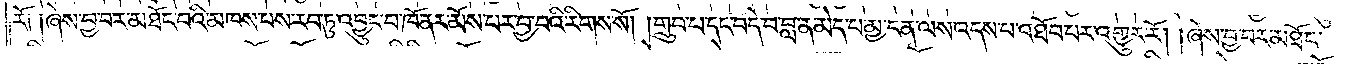རོ། །ཞེས་བྱ་བར་མཐོང་བའི་མཁས་པས་རབ་ཏུ་འབྱུང་བ་ཁོ་ནར་མོས་པར་བྱ་བའི་རིགས་སོ། །གྲུབ་པ་དང་བདེ་བ་བླ་ན་མེད་པ་མྱ་ངན་ལས་འདས་པ་འཐོབ་པར་འགྱུར་རོ། །ཞེས་བྱ་བར་མཐོང་
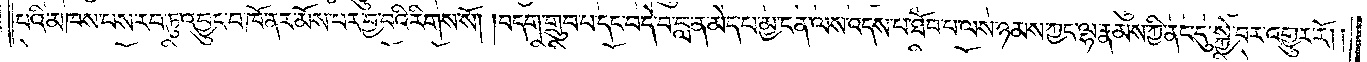པའི་མཁས་པས་རབ་ཏུ་འབྱུང་བ་ཁོ་ནར་མོས་པར་བྱ་བའི་རིགས་སོ། །བདག་གྲུབ་པ་དང་བདེ་བ་བླ་ན་མེད་པ་མྱ་ངན་ལས་འདས་པ་ཐོབ་པ་ལས་ཉམས་ཀྱང་ལྷ་རྣམས་ཀྱི་ནང་དུ་སྐྱེ་བར་འགྱུར་རོ། །
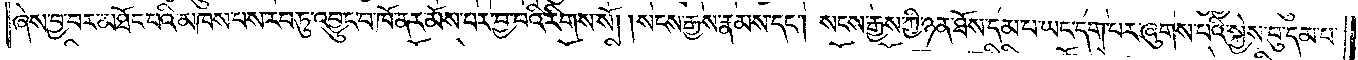ཞེས་བྱ་བར་མཐོང་བའི་མཁས་པས་རབ་ཏུ་འབྱུང་བ་ཁོ་ནར་མོས་པར་བྱ་བའི་རིགས་སོ། །སངས་རྒྱས་རྣམས་དང༌། སངས་རྒྱས་ཀྱི་ཉན་ཐོས་དམ་པ་ཡང་དག་པར་ཞུགས་པའི་སྐྱེས་བུ་དམ་པ་
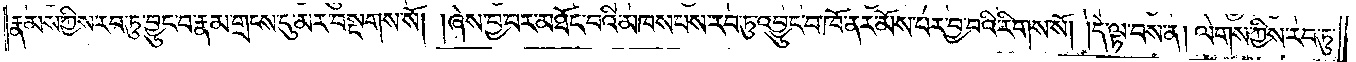རྣམས་ཀྱིས་རབ་ཏུ་བྱུང་བ་རྣམ་གྲངས་དུ་མར་བསྔགས་སོ། །ཞེས་བྱ་བར་མཐོང་བའི་མཁས་པས་རབ་ཏུ་འབྱུང་བ་ཁོ་ནར་མོས་པར་བྱ་བའི་རིགས་སོ། །དེ་ལྟ་བས་ན། ལེགས་ཀྱིས་རབ་ཏུ་
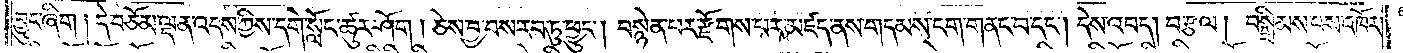བྱུང་ཞིག །དེ་བཅོམ་ལྡན་འདས་ཀྱིས་དགེ་སློང་ཚུར་ཤོག །ཅེས་བྱ་བས་རབ་ཏུ་ཕྱུང༌། བསྙེན་པར་རྫོགས་པར་མཛད་ནས་གདམས་ངག་གནང་བ་དང༌། དེས་འབད། བརྩལ། བསྒྲིམས་པས་འཁོར་
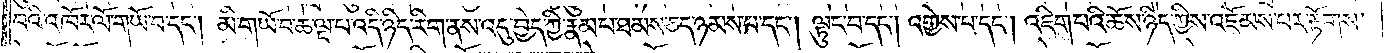བའི་འཁོར་ལོ་གཡོ་བ་དང༌། མི་གཡོ་བ་ཆ་ལྔ་པ་འདི་ཉིད་རིག་ནས་འདུ་བྱེད་ཀྱི་རྣམ་པ་ཐམས་ཅད་ཉམས་པ་དང༌། ལྟུང་བ་དང༌། འགྱེས་པ་དང༌། འཇིག་པའི་ཆོས་ཉིད་ཀྱིས་འཇོམས་པར་རྟོགས་
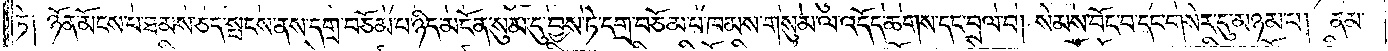ཏེ། ཉོན་མོངས་པ་ཐམས་ཅད་སྤངས་ནས་དགྲ་བཅོམ་པ་ཉིད་མངོན་སུམ་དུ་བྱས་ཏེ་དགྲ་བཅོམ་པ་ཁམས་གསུམ་ལ་འདོད་ཆགས་དང་བྲལ་བ། སེམས་བོང་བ་དང་གསེར་དུ་མཉམ་པ། ནམ་
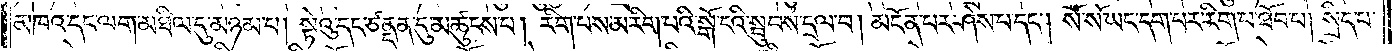མཁའ་དང་ལག་མཐིལ་དུ་མཉམ་པ། སྟེའུ་དང་ཙནྡན་དུ་མཚུངས་པ། རིག་པས་མ་རིག་པའི་སྒོ་ངའི་སྦུབས་དྲལ་བ། མངོན་པར་ཤེས་པ་དང༌། སོ་སོ་ཡང་དག་པར་རིག་པ་ཐོབ་པ། སྲིད་པ་
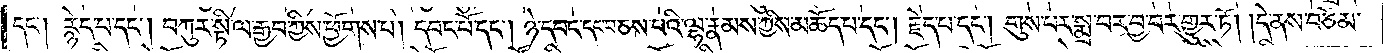དང༌། རྙེད་པ་དང༌། བཀུར་སྟི་ལ་རྒྱབ་ཀྱིས་ཕྱོགས་པ། དབང་པོ་དང༌། ཉེ་དབང་དང་བཅས་པའི་ལྷ་རྣམས་ཀྱིས་མཆོད་པ་དང༌། རྗེད་པ་དང༌། གུས་པར་སྨྲ་བར་བྱ་བར་གྱུར་ཏོ། །དེ་ནས་བཅོམ་
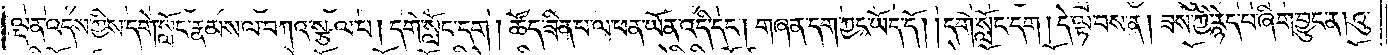ལྡན་འདས་ཀྱིས་དགེ་སློང་རྣམས་ལ་བཀའ་སྩལ་པ། དགེ་སློང་དག །ཚོད་ཟིན་པ་ལ་ཕན་ཡོན་འདི་དང༌། གཞན་དག་ཀྱང་ཡོད་དོ། །དགེ་སློང་དག །དེ་ལྟ་བས་ན། ཟས་ཀྱི་རྙེད་པ་ཞིག་བྱུང་ན། འུ་
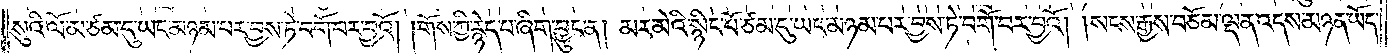སུའི་ལོ་མ་ཙམ་དུ་ཡང་མཉམ་པར་བྱས་ཏེ་བགོ་བར་བྱའོ། །གོས་ཀྱི་རྙེད་པ་ཞིག་བྱུང་ན། མར་མེའི་སྙིང་པོ་ཙམ་དུ་ཡང་མཉམ་པར་བྱས་ཏེ་བགོ་བར་བྱའོ། །སངས་རྒྱས་བཅོམ་ལྡན་འདས་མཉན་ཡོད་
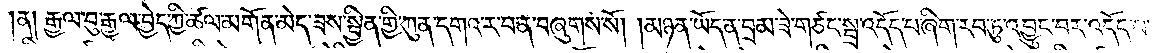ན། རྒྱལ་བུ་རྒྱལ་བྱེད་ཀྱི་ཚལ་མགོན་མེད་ཟས་སྦྱིན་གྱི་ཀུན་དགའ་ར་བ་ན་བཞུགས་སོ། །མཉན་ཡོད་ན་བྲམ་ཟེ་གཙང་སྦྲ་འདོད་པ་ཞིག་རབ་ཏུ་འབྱུང་བར་འདོད་པ་
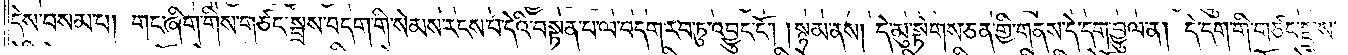དེས་བསམ་པ། གང་ཞིག་གིས་གཙང་སྦྲས་བདག་གི་སེམས་རངས་པ་དེའི་བསྟན་པ་ལ་བདག་རབ་ཏུ་འབྱུང་ངོ༌། །སྙམ་ནས། དེ་མུ་སྟེགས་ཅན་གྱི་གནས་དེ་དག་བྱུལ་ན། དེ་དག་གི་གཙང་སྦྲས་
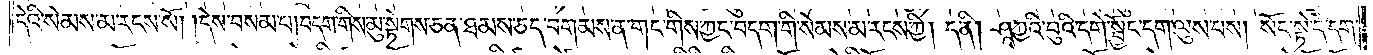དེའི་སེམས་མ་རངས་སོ། །དེས་བསམ་པ། བདག་གིས་མུ་སྟེགས་ཅན་ཐམས་ཅད་བགམས་ན་གང་གིས་ཀྱང་བདག་གི་སེམས་མ་རངས་ཀྱི། ད་ནི། ཤཱཀྱའི་བུའི་དགེ་སྦྱོང་དག་ལུས་པས། སོང་སྟེ་དེ་དག་
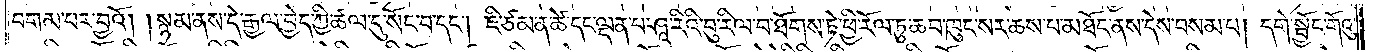བགམ་པར་བྱའོ། །སྙམ་ནས་དེ་རྒྱལ་བྱེད་ཀྱི་ཚལ་དུ་སོང་བ་དང༌། ཇི་ཙམ་ན་ཚེ་དང་ལྡན་པ་ཤཱ་རིའི་བུ་རིལ་བ་ཐོགས་ཏེ་ཕྱི་རོལ་ཏུ་ཆབ་ཁུང་སར་ཆས་པ་མཐོང་ནས་དེས་བསམ་པ། དགེ་སྦྱོང་གོའུ་
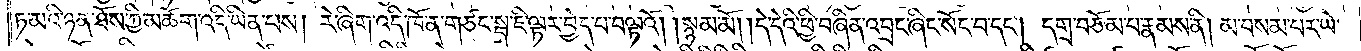ཏ་མའི་ཉན་ཐོས་ཀྱི་མཆོག་འདི་ཡིན་པས། རེ་ཞིག་འདི་ཁོ་ན་གཙང་སྦྲ་ཇི་ལྟར་བྱེད་པ་བལྟའོ། །སྙམ་མོ། །དེ་དེའི་ཕྱི་བཞིན་འབྲང་ཞིང་སོང་བ་དང༌། དགྲ་བཅོམ་པ་རྣམས་ནི། མ་བསམ་པར་ཡེ་
